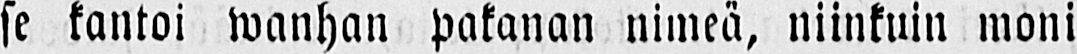se kantoi wanhan pakanan nimeä, niinkuin moni
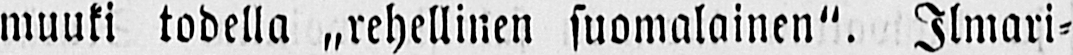muuki todella „rehellinen suomalainen". Ilmari-
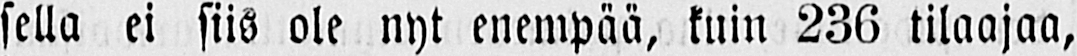sella ei siis ole nyt enempää, kuin 236 tilaajaa,
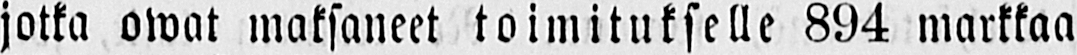jotka owat maksaneet toimitukselle 894 markkaa
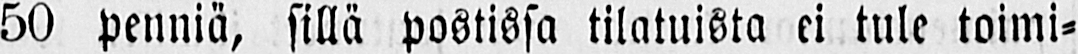50 penniä, sillä postissa tilatuista ei tule toimi-
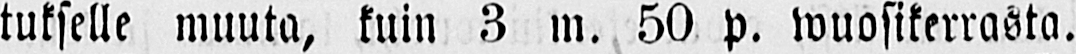tukselle muuta, kuin 3 m. 50 p. wuosikerrasta.
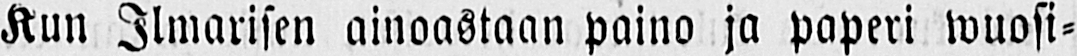Kun Ilmarisen ainoastaan paino ja paperi wuosi-
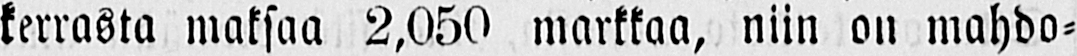kerrasta maksaa 2,050 markkaa, niin on mahdo-
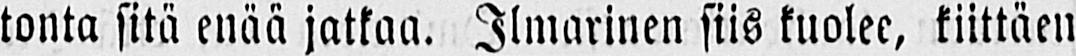tonta sitä enää jatkaa. Ilmarinen siis kuolee, kiittäen
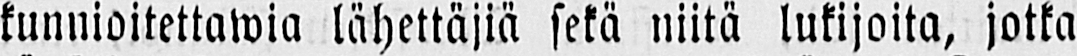kunnioitettawia lähettäjiä sekä niitä lukijoita, jotka
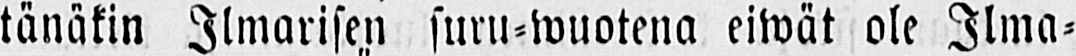tänäkin Ilmarisen suru-wuotena eiwät ole Ilma-
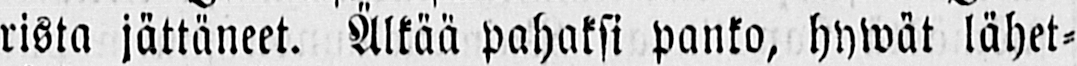rista jättäneet. Älkää pahaksi panko, hywät lähet-
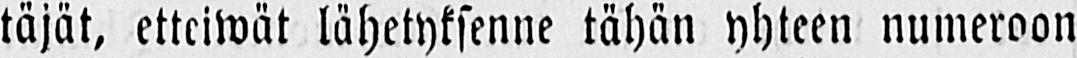täjät, etteiwät lähetyksenne tähän yhteen numeroon
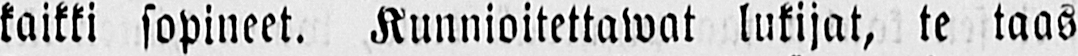kaikki sopineet. Kunnioitettawat lukijat, te taas
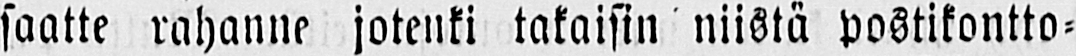saatte rahanne jotenki takaisin niistä postikontto-
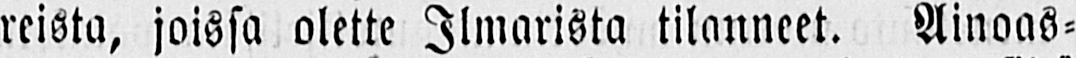reista, joissa olette Ilmarista tilanneet. Ainoas-
